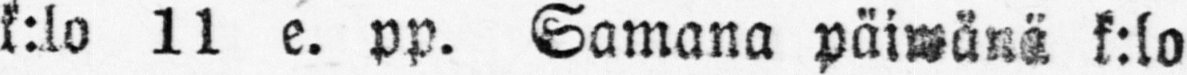k:lo 11 e. pp. Samana päiwänä k:lo
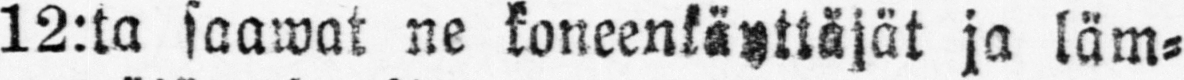12:ta saawat ne koneenkäyttäjät ja läm-
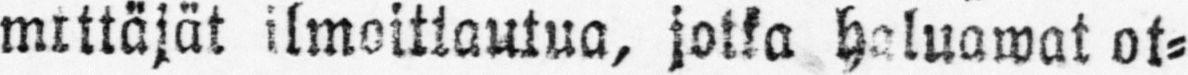mittäjät ilmoittautua, jotka haluawat ot-
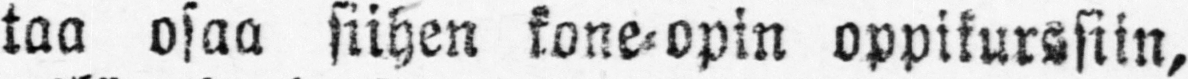taa osaa siihen kone-opin oppikurssiin,
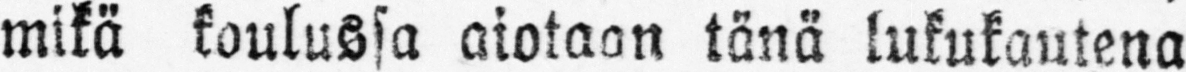mikä koulussa aiotaan tänä lukukautena
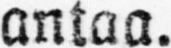antaa.
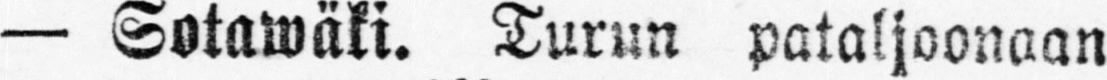— Sotawäki. Turun pataljoonaan
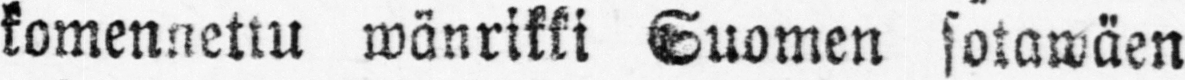komennettu wänrikki Suomen sotawäen
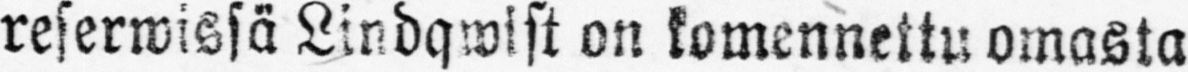reserwissä Lindqwist on komennettu omasta
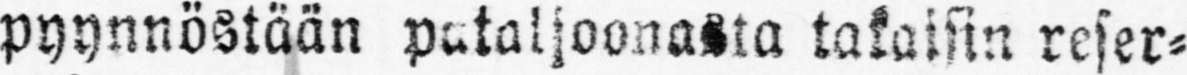pyynnöstään pataljoonasta takaisin reser-
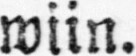wiin.
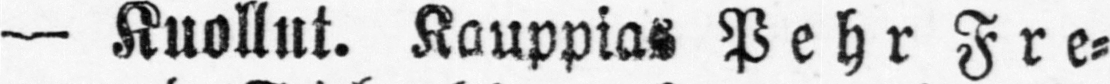— Kuollut. Kauppias Pehr Fre-
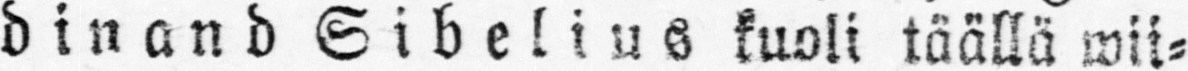dinand Sibelius kuoli täällä wii-
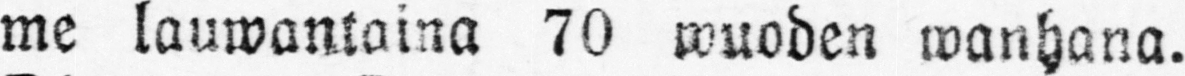me lauwantaina 70 wuoden wanhana.
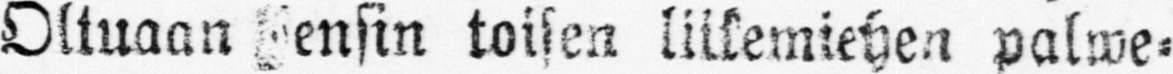Oltuaan ensin toisen liikemiehen palwe-
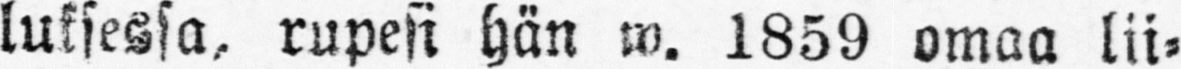luksessa, rupesi hän w. 1859 omaa lii-
